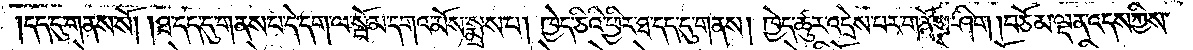དད་དུ་གནས་སོ། །ཐ་དད་དུ་གནས་པ་དེ་དག་ལ་སྦོམ་དགའ་མོས་སྨྲས་པ། ཁྱེད་ཅིའི་ཕྱིར་ཐ་དད་དུ་གནས། ཁྱེད་ཚུར་འདྲེས་པར་གནོས་ཤིག །བཅོམ་ལྡན་འདས་ཀྱིས་
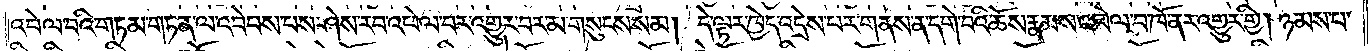འཕེལ་བའི་གཏམ་གཏན་ལ་འབེབས་པས་ཤེས་རབ་འཕེལ་བར་འགྱུར་བར་མ་གསུངས་སམ། དེ་ལྟར་ཁྱེད་འདྲེས་པར་གནས་ན་དགེ་བའི་ཆོས་རྣམས་འཕེལ་བ་ཁོ་ནར་འགྱུར་གྱི། ཉམས་པ་
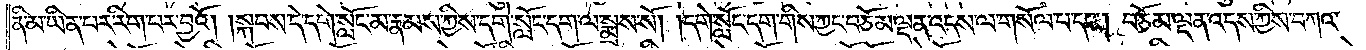ནི་མ་ཡིན་པར་རིག་པར་བྱའོ། །སྐབས་དེ་དགེ་སློང་མ་རྣམས་ཀྱིས་དགེ་སློང་དག་ལ་སྨྲས་སོ། །དགེ་སློང་དག་གིས་ཀྱང་བཅོམ་ལྡན་འདས་ལ་གསོལ་པ་དང༌། བཅོམ་ལྡན་འདས་ཀྱིས་བཀའ་
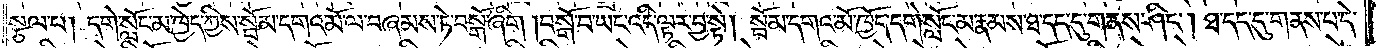སྩལ་པ། དགེ་སློང་མ་ཁྱེད་ཀྱིས་སྦོམ་དགའ་མོ་ལ་བཞམས་ཏེ་བསྒོ་ཞིག །བསྒོ་བ་ཡང་འདི་ལྟར་བྱ་སྟེ། སྦོམ་དགའ་མོ་ཁྱོད་དགེ་སློང་མ་རྣམས་ཐ་དད་དུ་གནས་ཤིང༌། ཐ་དད་དུ་གནས་པ་དེ་
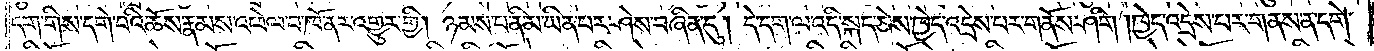དག་གིས་དགེ་བའི་ཆོས་རྣམས་འཕེལ་བ་ཁོ་ནར་འགྱུར་གྱི། ཉམས་པ་ནི་མ་ཡིན་པར་ཤེས་བཞིན་དུ། དེ་དག་ལ་འདི་སྐད་ཅེས་ཁྱེད་འདྲེས་པར་གནོས་ཤིག །ཁྱེད་འདྲེས་པར་གནས་ན་དགེ་
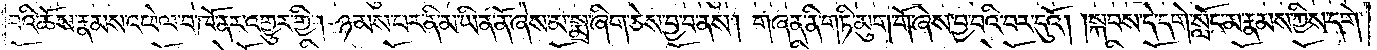བའི་ཆོས་རྣམས་འཕེལ་བ་ཁོ་ནར་འགྱུར་གྱི། ཉམས་པར་ནི་མ་ཡིན་ནོ་ཞེས་མ་སྨྲ་ཞིག་ཅེས་བྱ་བ་ནས། གཞན་ནི་གཏི་མུག་གོ་ཞེས་བྱ་བའི་བར་དུའོ། །སྐབས་དེ་དགེ་སློང་མ་རྣམས་ཀྱིས་དགེ་
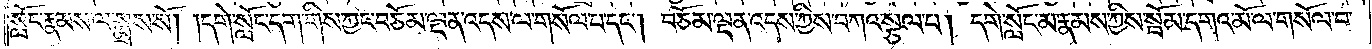སློང་རྣམས་ལ་སྨྲས་སོ། །དགེ་སློང་དག་གིས་ཀྱང་བཅོམ་ལྡན་འདས་ལ་གསོལ་བ་དང༌། བཅོམ་ལྡན་འདས་ཀྱིས་བཀའ་སྩལ་པ། དགེ་སློང་མ་རྣམས་ཀྱིས་སྦོམ་དགའ་མོ་ལ་གསོལ་བ་
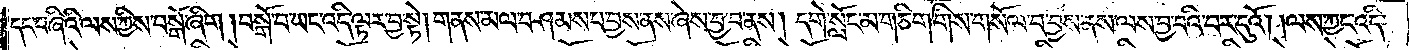དང་བཞིའི་ལས་ཀྱིས་བསྒོ་ཞིག །བསྒོ་བ་ཡང་འདི་ལྟར་བྱ་སྟེ། གནས་མལ་བཤམས་པ་བྱས་ནས་ཞེས་བྱ་བ་ནས། དགེ་སློང་མ་གཅིག་གིས་གསོལ་བ་བྱས་ནས་ལས་བྱ་བའི་བར་དུའོ། །ལས་ཀྱང་འདི་
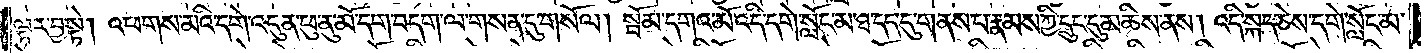ལྟར་བྱ་སྟེ། འཕགས་མའི་དགེ་འདུན་ཕུ་ནུ་མོ་དག་བདག་ལ་གསན་དུ་གསོལ། སྦོམ་དགའ་མོ་འདི་དགེ་སློང་མ་ཐ་དད་དུ་གནས་པ་རྣམས་ཀྱི་དྲུང་དུ་མཆིས་ནས། འདི་སྐད་ཅེས་དགེ་སློང་མ་
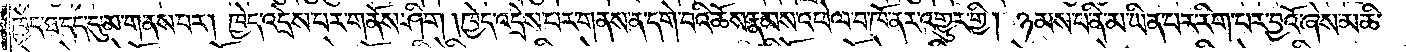ཁྱེད་ཐ་དད་དུ་མ་གནས་པར། ཁྱེད་འདྲེས་པར་གནོས་ཤིག །ཁྱེད་འདྲེས་པར་གནས་ན་དགེ་བའི་ཆོས་རྣམས་འཕེལ་བ་ཁོ་ནར་འགྱུར་གྱི། ཉམས་པ་ནི་མ་ཡིན་པར་རིག་པར་བྱའོ་ཞེས་མཆི་
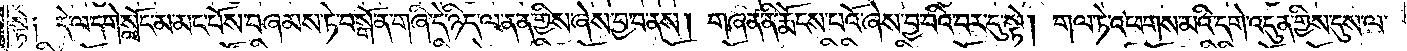སྟེ༑ དེ་ལ་དགེ་སློང་མ་མང་པོས་བཞམས་ཏེ་བསྒོ་ན་གཞི་དེ་ཉིད་ལ་ནན་གྱིས་ཞེས་བྱ་བ་ནས། གཞན་ནི་རྨོངས་པའོ་ཞེས་བྱ་བའི་བར་དུ་སྟེ། གལ་ཏེ་འཕགས་མའི་དགེ་འདུན་གྱིས་དུས་ལ་
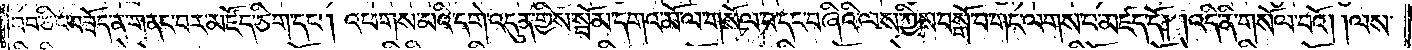བབ་ཅིང་བཟོད་ན་གནང་བར་མཛོད་ཅིག་དང༌། འཕགས་མའི་དགེ་འདུན་གྱིས་སྦོམ་དགའ་མོ་ལ་གསོལ་བ་དང་བཞིའི་ལས་ཀྱིས་བསྒོ་བ་གང་ལགས་པ་མཛད་དོ། །འདི་ནི་གསོལ་བའོ། །ལས་
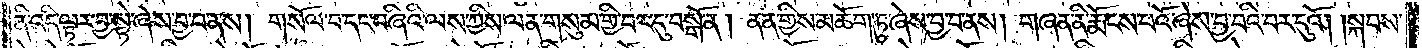ནི་འདི་ལྟར་བྱ་སྟེ་ཞེས་བྱ་བ་ནས། གསོལ་བ་དང་བཞིའི་ལས་ཀྱིས་ལན་གསུམ་གྱི་བར་དུ་བསྒོ་ན། ནན་གྱིས་མཆོག་ཏུ་ཞེས་བྱ་བ་ནས། གཞན་ནི་རྨོངས་པའོ་ཞེས་བྱ་བའི་བར་དུའོ། །སྐབས་
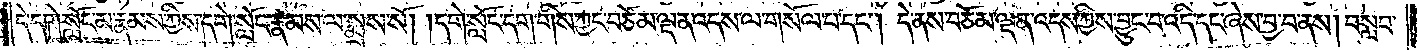དེ་དགེ་སློང་མ་རྣམས་ཀྱིས་དགེ་སློང་རྣམས་ལ་སྨྲས་སོ། །དགེ་སློང་དག་གིས་ཀྱང་བཅོམ་ལྡན་འདས་ལ་གསོལ་བ་དང༌། དེ་ནས་བཅོམ་ལྡན་འདས་ཀྱིས་བྱུང་བ་འདི་དང་ཞེས་བྱ་བ་ནས། བསླབ་
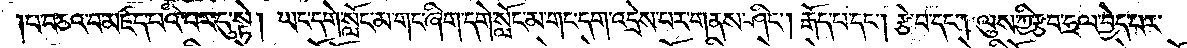པ་བཅའ་བ་མཛད་པའི་བར་དུ་སྟེ། ཡང་དགེ་སློང་མ་གང་ཞིག་དགེ་སློང་མ་གང་དག་འདྲེས་པར་གནས་ཤིང༌། རྒོད་པ་དང༌། རྩེ་བ་དང༌། ལུས་ཀྱི་རྩབ་ཧྲལ་བྱེད་པར་
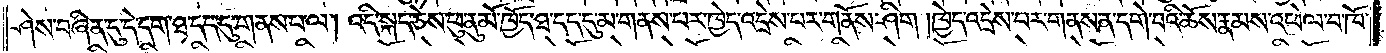ཤེས་བཞིན་དུ་དེ་དག་ཐ་དད་དུ་གནས་པ་ལ། འདི་སྐད་ཅེས་ཕུ་ནུ་མོ་ཁྱོད་ཐ་དད་དུ་མ་གནས་པར་ཁྱེད་འདྲེས་པར་གནོས་ཤིག །ཁྱེད་འདྲེས་པར་གནས་ན་དགེ་བའི་ཆོས་རྣམས་འཕེལ་བ་ཁོ་
